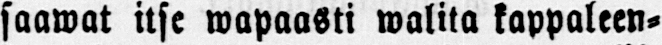saawat itse wapaasti walita kappaleen-
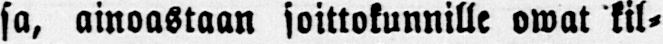sa, ainoastaan soittokunnille owat kil-
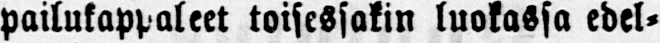pailukappaleet toisessakin luokassa edel-
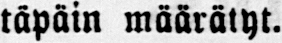täpäin määrätyt.
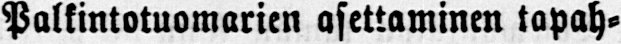Palkintotuomarien asettaminen tapah-
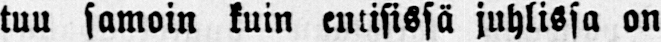tuu samoin kuin entisissä juhlissa on
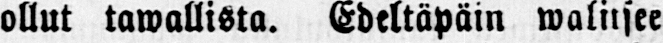ollut tawallista. Edeltäpäin waliisee
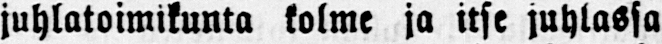juhlatoimikunta kolme ja itse juhlassa
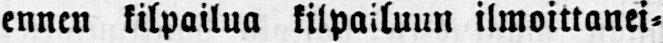ennen kilpailua kilpailuun ilmoittanei-
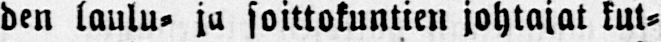den laulu- ja soittokuntien johtajat kut-
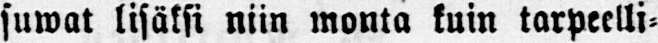suwat lisäksi niin monta kuin tarpeelli-
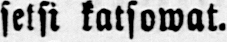seksi katsowat.
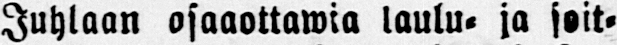Juhlaan osaaottawia laulu- ja soit-
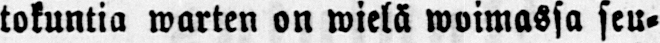tokuntia warten on wielä woimassa seu-
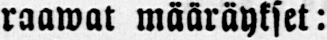raawat määräykset:
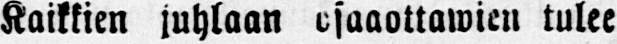Kaikkien juhlaan osaaottawien tulee
